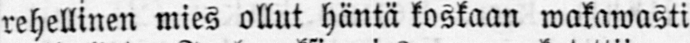rehellinen mies ollut häntä koskaan wakawasti
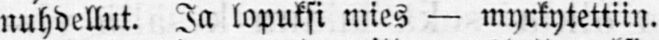nuhdellut. Ja lopuksi mies — myrkytettiin.
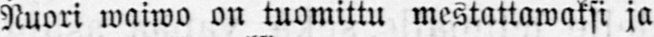Nuori waiwo on tuomittu mestattawaksi ja
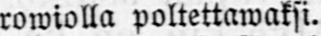rowiolla poltettawaksi.
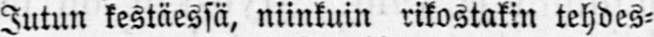Jutun kestäessä, niinkuin rikostakin tehdes-
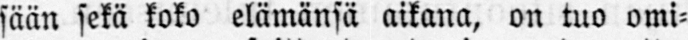sään sekä koko elämänsä aikana, on tuo omi-
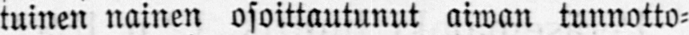tuinen nainen osoittautunut aiwan tunnotto-
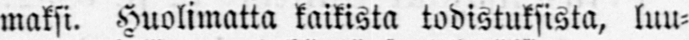maksi. Huolimatta kaikista todistuksista, luu-
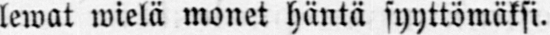lewat wielä monet häntä syyttömäksi.
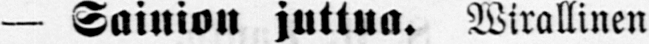— Sainion juttua. Wirallinen
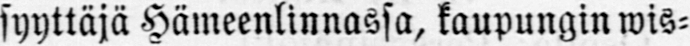syyttäjä Hämeenlinnassa, kaupungin wis-
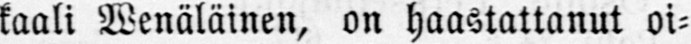kaali Wenäläinen, on haastattanut oi-
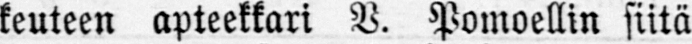keuteen apteekkari V. Pomoellin siitä
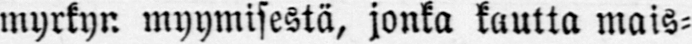myrkyn myymisestä, jonka kautta mais-
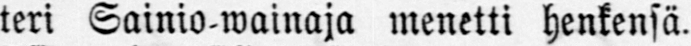teri Sainio-wainaja menetti henkensä.
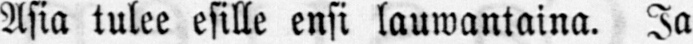Asia tulee esille ensi lauwantaina. Ja
